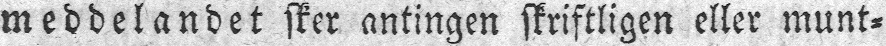meddelandet sker antingen skriftligen eller munt-
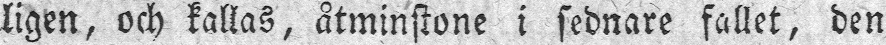ligen, och kallas, åtminstone i sednare fallet, den
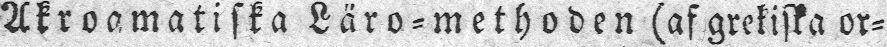Akroamatiska Läro-methoden (af grekiska or-
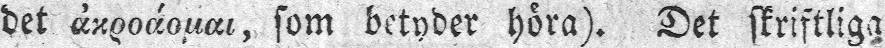det άκροάομαι, som betyder höra). Det skriftliga
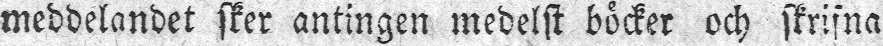meddelandet sker antingen medelst böcker och skrifna
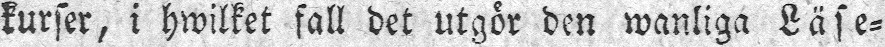kurser, i hwilket fall det utgör den wanliga Läse-
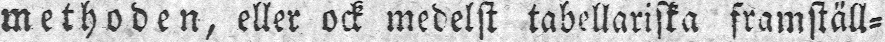methoden, eller ock medelst tabellariska framställ-
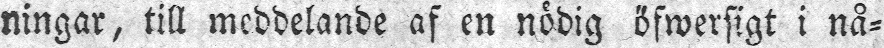ningar, till meddelande af en nödig öfwersigt i nå-
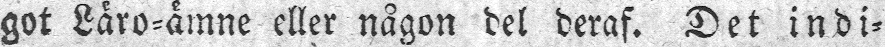got Läro-ämne eller någon del deraf. Det indi-
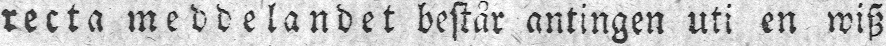recta meddelandet består antingen uti en wisz
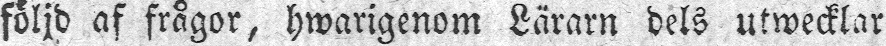följd af frågor, hwarigenom Lärarn dels utwecklar
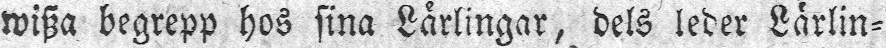wisza begrepp hos sina Lärlingar, dels leder Lärlin-
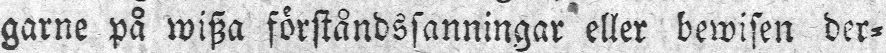garne på wisza förståndssanningar eller bewisen der-
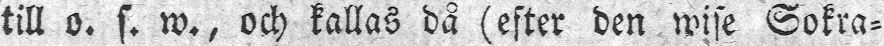till o. s. w., och kallas då (efter den wise Sokra-
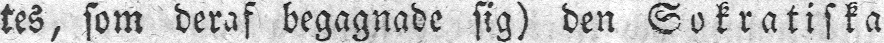tes, som deraf begagnade sig) den Sokratiska
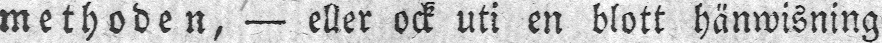methoden, — eller ock uti en blott hänwisning
